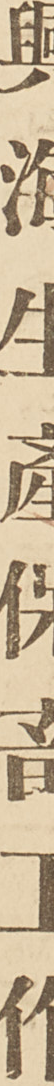興海生產保畜工作
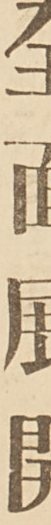全面展開
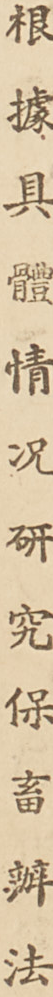根 據 具 體 情 況 研 究 保 畜 辦 法
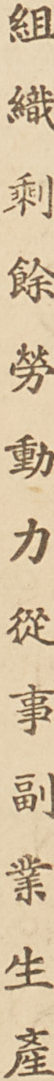組 織 剩 餘 勞 動 力 從 事 副 業 生 產
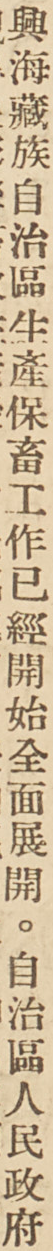興海藏族自治區生產保畜工作已經開始全面展開。自治區人民政府
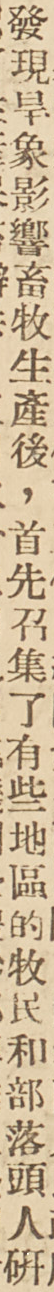發現旱象影響畜牧生產後，首先召集了有些地區的牧民和部落頭人研
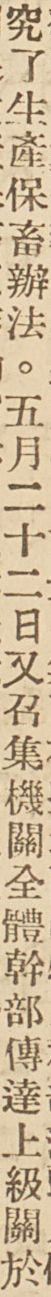究了生產保畜辦法。五月二十二日又召集機關全體幹部傳達上級關於
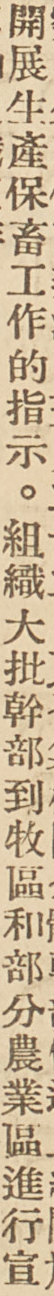開展生產保畜工作的指示。組織大批幹部到牧區和部分農業區進行宣
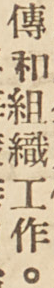傳和組織工作。
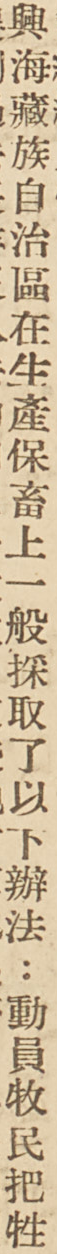興海藏族自治區在生產保畜上一般採取了以下辦法：動員牧民把牲
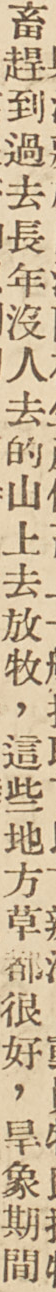畜趕到過去常年沒人去的山上去放牧，這些地方草都很好，旱象期間
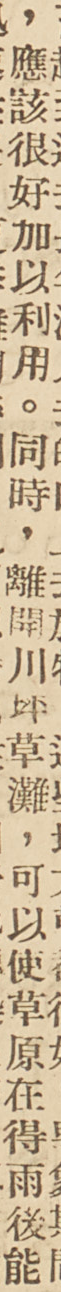，應該很好加以利用。同時，離開川坪草灘，可以使草原在得雨後能
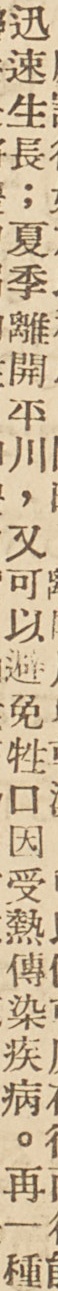迅速生長：夏季離開平川，又可以避免牲口因受熱傳染疾病。再一種
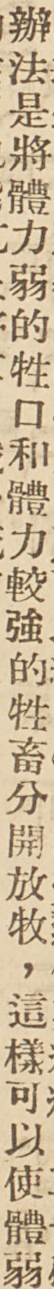辦法是將體力弱的牲口和體力較強的牲畜分開放牧，這樣可以使體弱
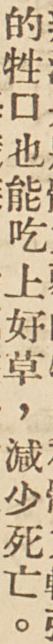的牲口也能吃上好草，減少死亡。
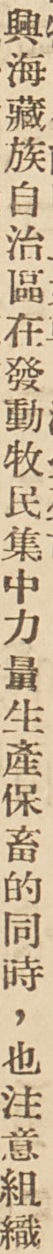興海藏族自治區在發動牧民集中力量生產保畜的同時，也注意組織
